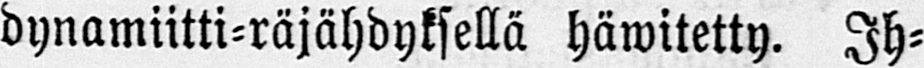dynamiitti-räjähdyksellä häwitetty. Ih-
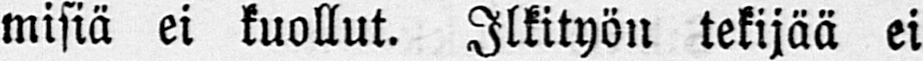misiä ei kuollut. Ilkityön tekijää ei
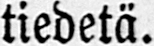tiedetä.
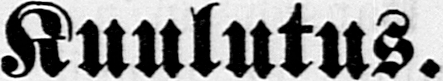Kuulutus.
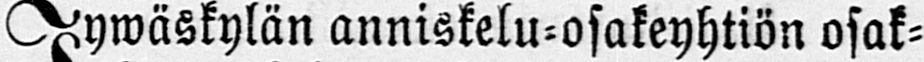Jywäskylän anniskelu-osakeyhtiön osak-
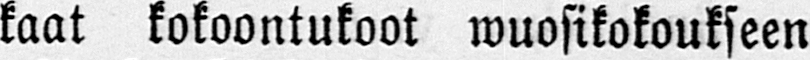kaat kokoontukoot wuosikokoukseen
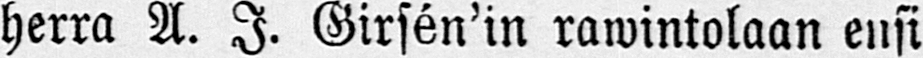herra A. I. Girsén'in rawintolaan ensi
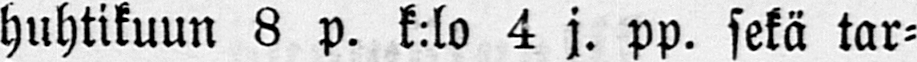huhtikuun 8 p. k:lo 4 j. pp. sekä tar-
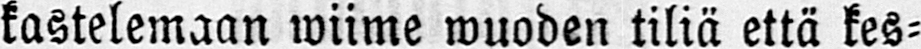kastelemaan wiime wuoden tiliä että kes-
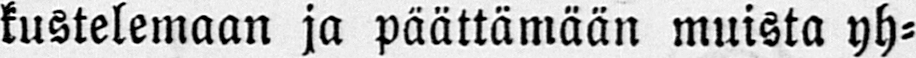kustelemaan ja päättämään muista yh-
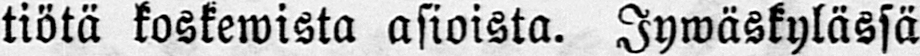tiötä koskewista asioista. Jywäskylässä
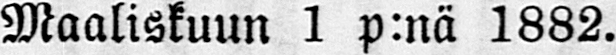Maaliskuun 1 p:nä 1882.
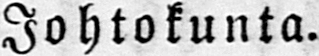Johtokunta.
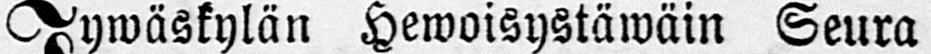Jywäskylän Hewoisystäwäin Seura
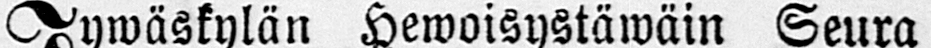kutsutaan tiistaina kolmantena Pää-
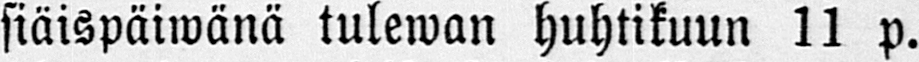siäispäiwänä tulewan huhtikuun 11 p.
